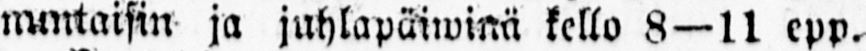nuntaisin ja juhlapäiwinä kello 8—11 epp.
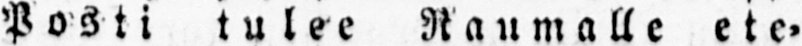Posti tulee Raumalle ete-
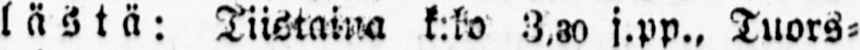lästä: Tiistaina k:ko 3,30 j.pp., Tuors-
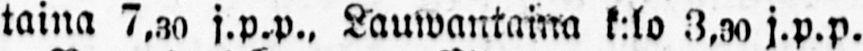taina 7,30 j.p.p., Lauwantaina k:lo 3,30 j.p.p.
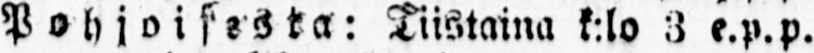Pohjoisesta: Tiistaina k:lo 3 e.p.p.
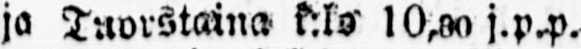ja Tuorstaina k:lo 10,30 j.p.p.
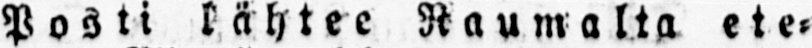Posti lähtee Raumalta ete-
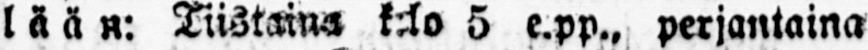lään: Tiistaina 5 e.pp., perjantaina
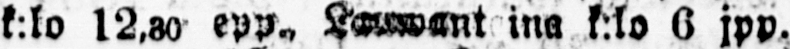k:ko 12,30 epp., Lauwant ina k:lo 6 jpp.
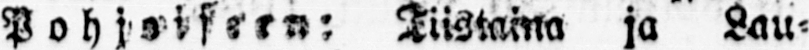P ohjoisern: Tiistaina ja Lau-
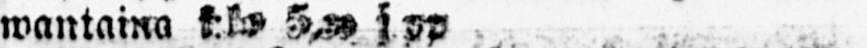wantaina k.lo 5,30 j.pp
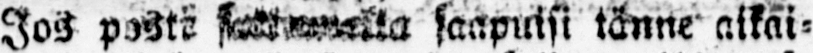Jos posti ta saapuisi tänne aikai-
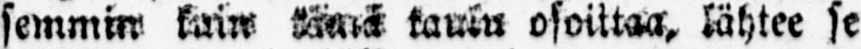semmin kuin taulu osoittaa, lähtee se
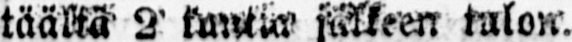täältä 2' jälkeen tulon.
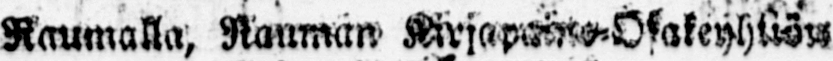Raumalla, Rauman Kirjapaaino-Osakeyhtiön
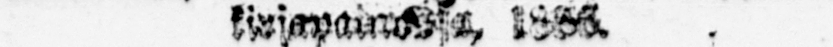kirjapainosa 1886
